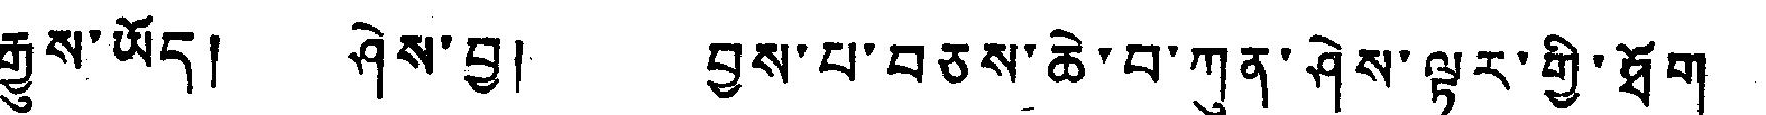རྒྱུས་ཡོད། ཤེས་བྱ། བྱ་པ་བཅས་ཆེ་བ་ཀུན་ཤེས་ལྟར་གྱི་ཐོག
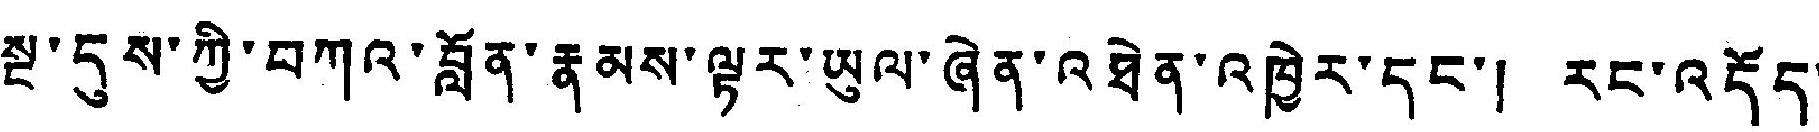སྔ་དུས་ཀྱི་བཀའ་བློན་རྣམས་ལྟར་ཡུལ་ཞེན་འཐེན་འཁྱེར་དང་། རང་འདོད་
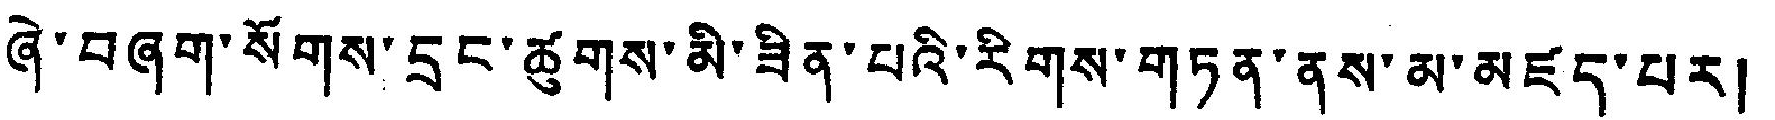ཞེ་བཞག་སོགས་དྲང་ཚུགས་མི་ཟིན་པའི་རིགས་གཏན་ནས་མ་མཛད་པར།
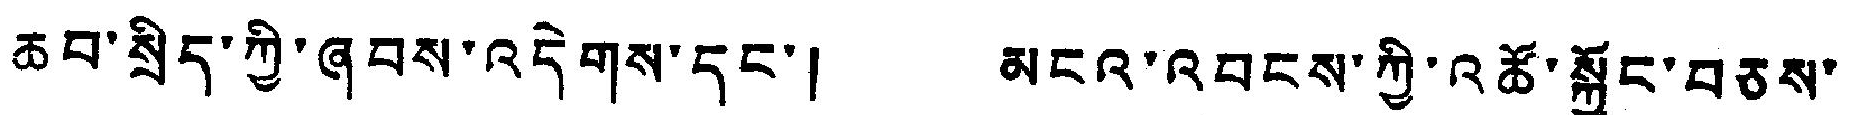ཆབ་སྲིད་ཀྱི་ཞབས་འདེགས་དང་། མངའ་འབངས་ཀྱི་འཚོ་སྐྱོང་བཅས་
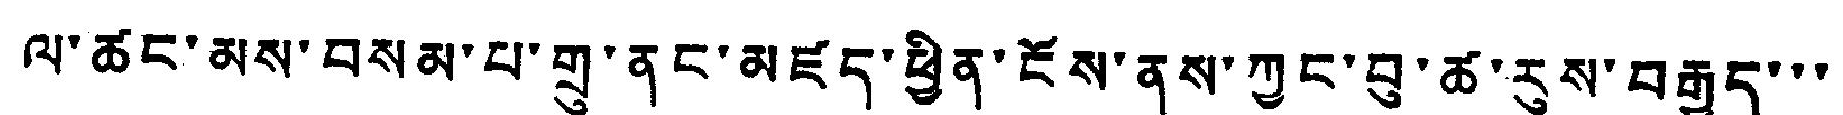ལ་ཚང་མས་བསམ་པ་གྲུ་ནང་མཛད་ཕྱིན་ངོས་ནས་ཀྱང་བུ་ཚ་རུས་བརྒྱུད་་་
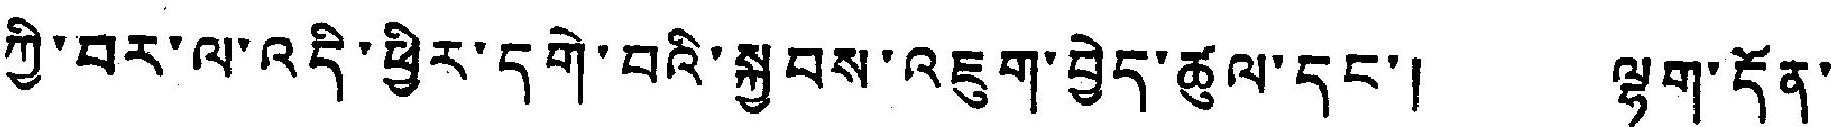ཀྱི་བར་ལ་འདི་ཕྱིར་དགེ་བའི་སྐྱབས་འཇུག་བྱེད་ཚུལ་དང་། ལྷག་དོན་
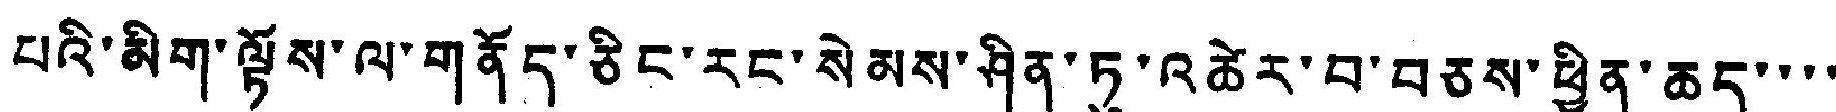པའི་མིག་ལྟོས་ལ་གནོད་ཅིང་རང་སེམས་ཤིན་ཏུ་འཚེར་བ་བཅས་ཕྱིན་ཆད་་་་
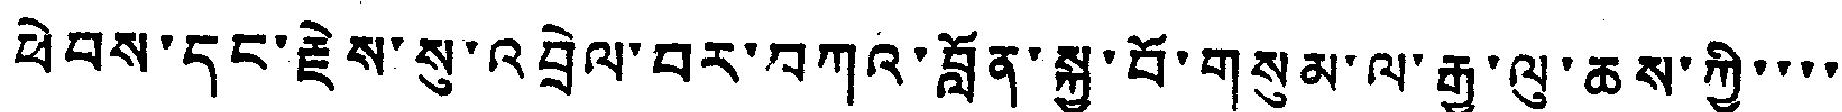ཕེབས་དང་རྗེས་སུ་འབྲེལ་བར་བཀའ་བློན་སྐྱ་བོ་གསུམ་ལ་རྒྱ་ལུ་ཆས་ཀྱི་་་་
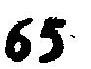65
